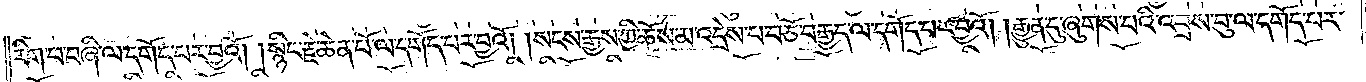རིག་པ་བཞི་ལ་དགོད་པར་བྱའོ། །སྙིང་རྗེ་ཆེན་པོ་ལ་དགོད་པར་བྱའོ། །སངས་རྒྱས་ཀྱི་ཆོས་མ་འདྲེས་པ་བཅོ་བརྒྱད་ལ་དགོད་པར་བྱའོ། །རྒྱུན་དུ་ཞུགས་པའི་འབྲས་བུ་ལ་དགོད་པར་
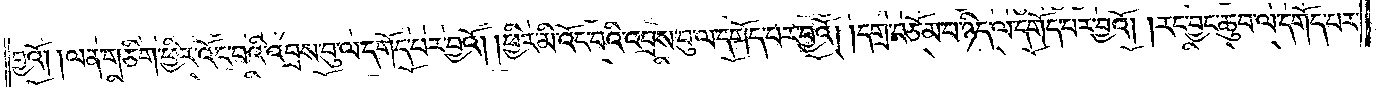བྱའོ། །ལན་ཅིག་ཕྱིར་འོང་བའི་འབྲས་བུ་ལ་དགོད་པར་བྱའོ། །ཕྱིར་མི་འོང་བའི་འབྲས་བུ་ལ་དགོད་པར་བྱའོ། །དགྲ་བཅོམ་པ་ཉིད་ལ་དགོད་པར་བྱའོ། །རང་བྱང་ཆུབ་ལ་དགོད་པར་
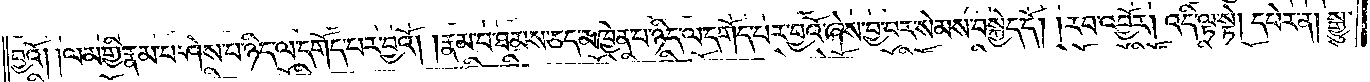བྱའོ། །ལམ་གྱི་རྣམ་པ་ཤེས་པ་ཉིད་ལ་དགོད་པར་བྱའོ། །རྣམ་པ་ཐམས་ཅད་མཁྱེན་པ་ཉིད་ལ་དགོད་པར་བྱའོ་ཞེས་བྱ་བར་སེམས་བསྐྱེད་དོ། །རབ་འབྱོར། འདི་ལྟ་སྟེ། དཔེར་ན། སྒྱུ་
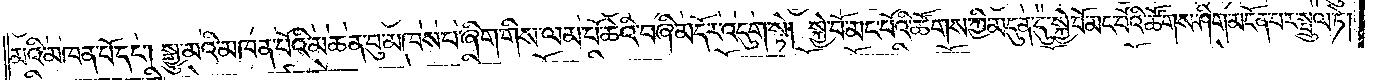མའི་མཁན་པོ་དང༌། སྒྱུ་མའི་མཁན་པོའི་མཆན་བུ་མཁས་པ་ཞིག་གིས་ལམ་པོ་ཆེའི་བཞི་མདོར་འདུག་སྟེ། སྐྱེ་བོ་མང་པོའི་ཚོགས་ཀྱི་མདུན་དུ་སྐྱེ་བོ་མང་པོའི་ཚོགས་ཤིག་མངོན་པར་སྤྲུལ་ཏེ།
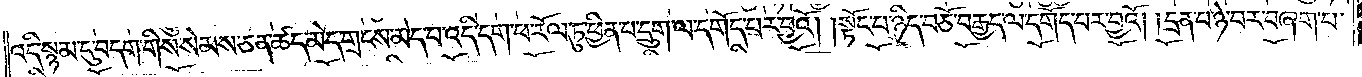འདི་སྙམ་དུ་བདག་གིས་སེམས་ཅན་ཚད་མེད་གྲངས་མེད་པ་འདི་དག་ཕ་རོལ་ཏུ་ཕྱིན་པ་དྲུག་ལ་དགོད་པར་བྱའོ། །སྟོང་པ་ཉིད་བཅོ་བརྒྱད་ལ་དགོད་པར་བྱའོ། །དྲན་པ་ཉེ་བར་བཞག་པ་
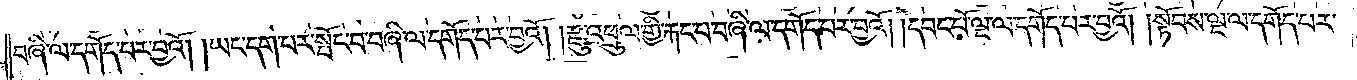བཞི་ལ་དགོད་པར་བྱའོ། །ཡང་དག་པར་སྤོང་བ་བཞི་ལ་དགོད་པར་བྱའོ། །རྫུ་འཕྲུལ་གྱི་རྐང་པ་བཞི་ལ་དགོད་པར་བྱའོ། །དབང་པོ་ལྔ་ལ་དགོད་པར་བྱའོ། །སྟོབས་ལྔ་ལ་དགོད་པར་
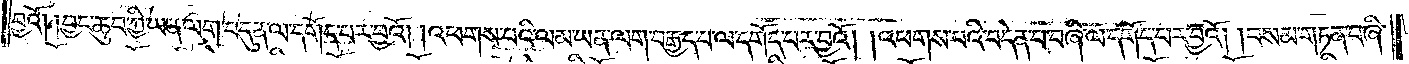བྱའོ། །བྱང་ཆུབ་ཀྱི་ཡན་ལག་བདུན་ལ་དགོད་པར་བྱའོ། །འཕགས་པའི་ལམ་ཡན་ལག་བརྒྱད་པ་ལ་དགོད་པར་བྱའོ། །འཕགས་པའི་བདེན་པ་བཞི་ལ་དགོད་པར་བྱའོ། །བསམ་གཏན་བཞི་
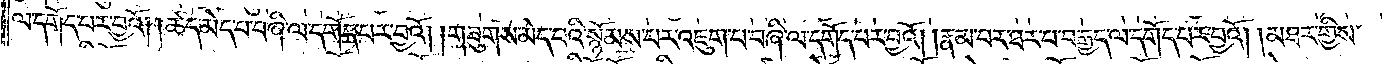ལ་དགོད་པར་བྱའོ། །ཚད་མེད་པ་བཞི་ལ་དགོད་པར་བྱའོ། །གཟུགས་མེད་པའི་སྙོམས་པར་འཇུག་པ་བཞི་ལ་དགོད་པར་བྱའོ། །རྣམ་པར་ཐར་པ་བརྒྱད་ལ་དགོད་པར་བྱའོ། །མཐར་གྱིས་
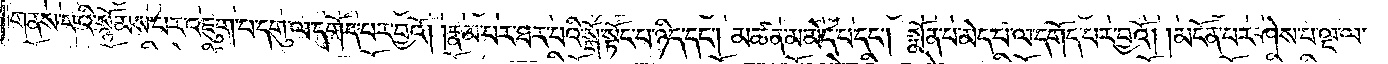གནས་པའི་སྙོམས་པར་འཇུག་པ་དགུ་ལ་དགོད་པར་བྱའོ། །རྣམ་པར་ཐར་པའི་སྒོ་སྟོང་པ་ཉིད་དང༌། མཚན་མ་མེད་པ་དང༌། སྨོན་པ་མེད་པ་ལ་དགོད་པར་བྱའོ། །མངོན་པར་ཤེས་པ་ལྔ་ལ་
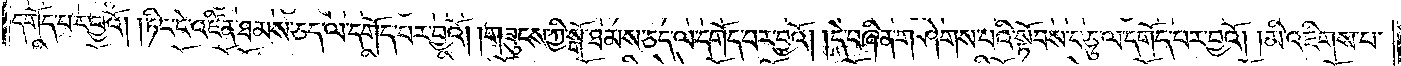དགོད་པར་བྱའོ། །ཏིང་ངེ་འཛིན་ཐམས་ཅད་ལ་དགོད་པར་བྱའོ། །གཟུངས་ཀྱི་སྒོ་ཐམས་ཅད་ལ་དགོད་པར་བྱའོ། །དེ་བཞིན་གཤེགས་པའི་སྟོབས་བཅུ་ལ་དགོད་པར་བྱའོ། །མི་འཇིགས་པ་
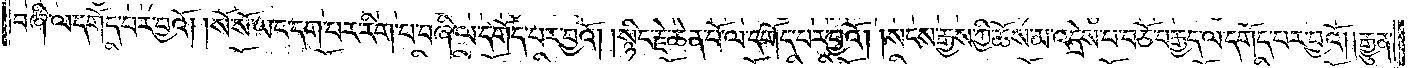བཞི་ལ་དགོད་པར་བྱའོ། །སོ་སོ་ཡང་དག་པར་རིག་པ་བཞི་ལ་དགོད་པར་བྱའོ། །སྙིང་རྗེ་ཆེན་པོ་ལ་དགོད་པར་བྱའོ། །སངས་རྒྱས་ཀྱི་ཆོས་མ་འདྲེས་པ་བཅོ་བརྒྱད་ལ་དགོད་པར་བྱའོ། །རྒྱུན་
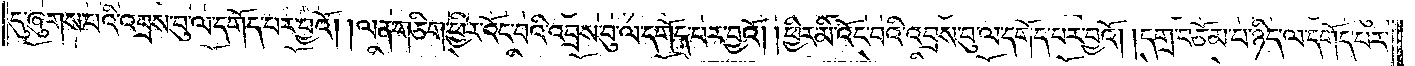དུ་ཞུགས་པའི་འབྲས་བུ་ལ་དགོད་པར་བྱའོ། །ལན་ཅིག་ཕྱིར་འོང་བའི་འབྲས་བུ་ལ་དགོད་པར་བྱའོ། །ཕྱིར་མི་འོང་བའི་འབྲས་བུ་ལ་དགོད་པར་བྱའོ། །དགྲ་བཅོམ་པ་ཉིད་ལ་དགོད་པར་
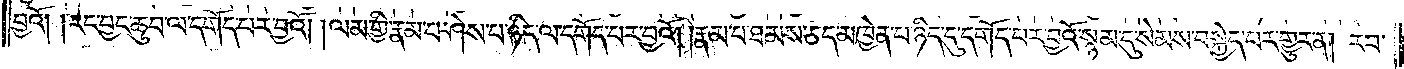བྱའོ། །རང་བྱང་ཆུབ་ལ་དགོད་པར་བྱའོ། །ལམ་གྱི་རྣམ་པ་ཤེས་པ་ཉིད་ལ་དགོད་པར་བྱའོ། །རྣམ་པ་ཐམས་ཅད་མཁྱེན་པ་ཉིད་དུ་དགོད་པར་བྱའོ་སྙམ་དུ་སེམས་བསྐྱེད་པར་གྱུར་ན། རབ་
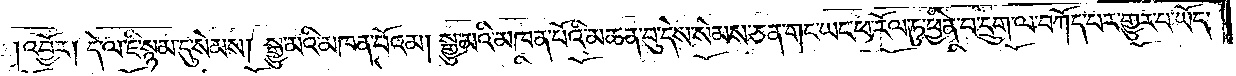འབྱོར། དེ་ལ་ཇི་སྙམ་དུ་སེམས། སྒྱུ་མའི་མཁན་པོ་འམ། སྒྱུ་མའི་མཁན་པོའི་མཆན་བུ་དེས་སེམས་ཅན་གང་ཡང་ཕ་རོལ་ཏུ་ཕྱིན་པ་དྲུག་ལ་བཀོད་པར་གྱུར་པ་ཡོད་
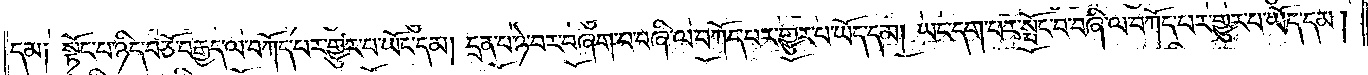དམ། སྟོང་པ་ཉིད་བཅོ་བརྒྱད་ལ་བཀོད་པར་གྱུར་པ་ཡོད་དམ། དྲན་པ་ཉེ་བར་བཞག་པ་བཞི་ལ་བཀོད་པར་གྱུར་བ་ཡོད་དམ། ཡང་དག་པར་སྤོང་བ་བཞི་ལ་བཀོད་པར་གྱུར་པ་ཡོད་དམ།
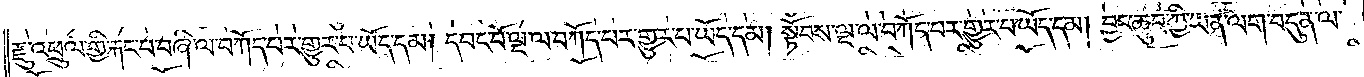རྫུ་འཕྲུལ་གྱི་རྐང་པ་བཞི་ལ་བཀོད་པར་གྱུར་པ་ཡོད་དམ། དབང་པོ་ལྔ་ལ་བཀོད་པར་གྱུར་པ་ཡོད་དམ། སྟོབས་ལྔ་ལ་བཀོད་པར་གྱུར་པ་ཡོད་དམ། བྱང་ཆུབ་ཀྱི་ཡན་ལག་བདུན་ལ་
